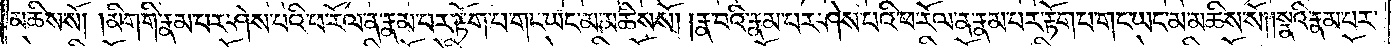མཆིས་སོ། །མིག་གི་རྣམ་པར་ཤེས་པའི་ཕ་རོལ་ན་རྣམ་པར་རྟོག་པ་གང་ཡང་མ་མཆིས་སོ། །རྣ་བའི་རྣམ་པར་ཤེས་པའི་ཕ་རོལ་ན་རྣམ་པར་རྟོག་པ་གང་ཡང་མ་མཆིས་སོ། །སྣའི་རྣམ་པར་
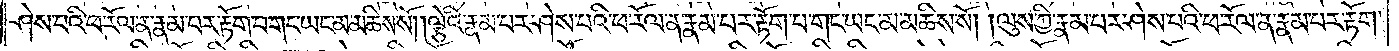ཤེས་པའི་ཕ་རོལ་ན་རྣམ་པར་རྟོག་པ་གང་ཡང་མ་མཆིས་སོ། །ལྕེའི་རྣམ་པར་ཤེས་པའི་ཕ་རོལ་ན་རྣམ་པར་རྟོག་པ་གང་ཡང་མ་མཆིས་སོ། །ལུས་ཀྱི་རྣམ་པར་ཤེས་པའི་ཕ་རོལ་ན་རྣམ་པར་རྟོག་
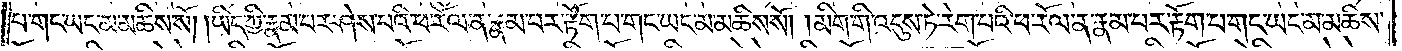པ་གང་ཡང་མ་མཆིས་སོ། །ཡིད་ཀྱི་རྣམ་པར་ཤེས་པའི་ཕ་རོལ་ན་རྣམ་པར་རྟོག་པ་གང་ཡང་མ་མཆིས་སོ། །མིག་གི་འདུས་ཏེ་རེག་པའི་ཕ་རོལ་ན་རྣམ་པར་རྟོག་པ་གང་ཡང་མ་མཆིས་
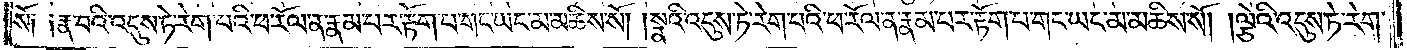སོ། །རྣ་བའི་འདུས་ཏེ་རེག་པའི་ཕ་རོལ་ན་རྣམ་པར་རྟོག་པ་གང་ཡང་མ་མཆིས་སོ། །སྣའི་འདུས་ཏེ་རེག་པའི་ཕ་རོལ་ན་རྣམ་པར་རྟོག་པ་གང་ཡང་མ་མཆིས་སོ། །ལྕེའི་འདུས་ཏེ་རེག་
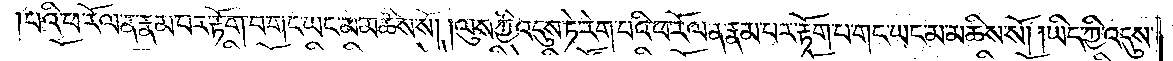པའི་ཕ་རོལ་ན་རྣམ་པར་རྟོག་པ་གང་ཡང་མ་མཆིས་སོ། །ལུས་ཀྱི་འདུས་ཏེ་རེག་པའི་ཕ་རོལ་ན་རྣམ་པར་རྟོག་པ་གང་ཡང་མ་མཆིས་སོ། །ཡིད་ཀྱི་འདུས་
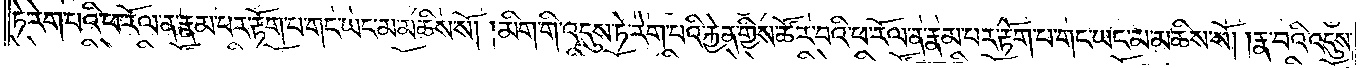ཏེ་རེག་པའི་ཕ་རོལ་ན་རྣམ་པར་རྟོག་པ་གང་ཡང་མ་མཆིས་སོ། །མིག་གི་འདུས་ཏེ་རེག་པའི་རྐྱེན་གྱིས་ཚོར་བའི་ཕ་རོལ་ན་རྣམ་པར་རྟོག་པ་གང་ཡང་མ་མཆིས་སོ། །རྣ་བའི་འདུས་
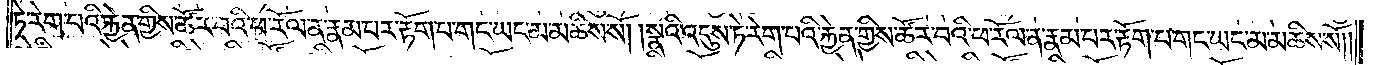ཏེ་རེག་པའི་རྐྱེན་གྱིས་ཚོར་བའི་ཕ་རོལ་ན་རྣམ་པར་རྟོག་པ་གང་ཡང་མ་མཆིས་སོ། །སྣའི་འདུས་ཏེ་རེག་པའི་རྐྱེན་གྱིས་ཚོར་བའི་ཕ་རོལ་ན་རྣམ་པར་རྟོག་པ་གང་ཡང་མ་མཆིས་སོ། །
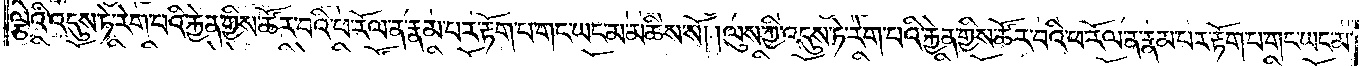ལྕེའི་འདུས་ཏེ་རེག་པའི་རྐྱེན་གྱིས་ཚོར་བའི་ཕ་རོལ་ན་རྣམ་པར་རྟོག་པ་གང་ཡང་མ་མཆིས་སོ། །ལུས་ཀྱི་འདུས་ཏེ་རེག་པའི་རྐྱེན་གྱིས་ཚོར་བའི་ཕ་རོལ་ན་རྣམ་པར་རྟོག་པ་གང་ཡང་མ་
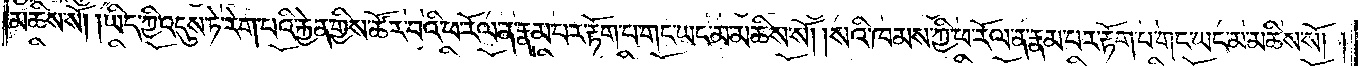མཆིས་སོ། །ཡིད་ཀྱི་འདུས་ཏེ་རེག་པའི་རྐྱེན་གྱིས་ཚོར་བའི་ཕ་རོལ་ན་རྣམ་པར་རྟོག་པ་གང་ཡང་མ་མཆིས་སོ། །སའི་ཁམས་ཀྱི་ཕ་རོལ་ན་རྣམ་པར་རྟོག་པ་གང་ཡང་མ་མཆིས་སོ། །
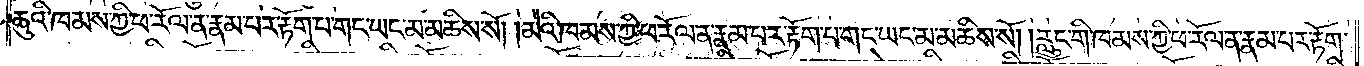ཆུའི་ཁམས་ཀྱི་ཕ་རོལ་ན་རྣམ་པར་རྟོག་པ་གང་ཡང་མ་མཆིས་སོ། །མེའི་ཁམས་ཀྱི་ཕ་རོལ་ན་རྣམ་པར་རྟོག་པ་གང་ཡང་མ་མཆིས་སོ། །རླུང་གི་ཁམས་ཀྱི་ཕ་རོལ་ན་རྣམ་པར་རྟོག་
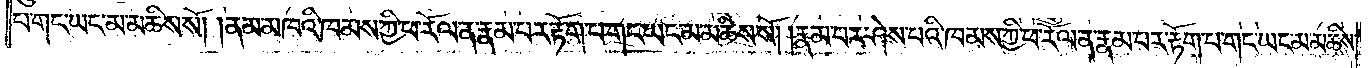པ་གང་ཡང་མ་མཆིས་སོ། །ནམ་མཁའི་ཁམས་ཀྱི་ཕ་རོལ་ན་རྣམ་པར་རྟོག་པ་གང་ཡང་མ་མཆིས་སོ། །རྣམ་པར་ཤེས་པའི་ཁམས་ཀྱི་ཕ་རོལ་ན་རྣམ་པར་རྟོག་པ་གང་ཡང་མ་མཆིས་
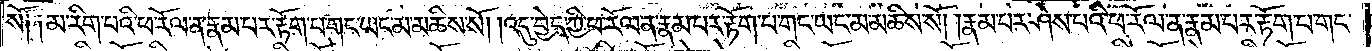སོ༑ ༑མ་རིག་པའི་ཕ་རོལ་ན་རྣམ་པར་རྟོག་པ་གང་ཡང་མ་མཆིས་སོ། །འདུ་བྱེད་ཀྱི་ཕ་རོལ་ན་རྣམ་པར་རྟོག་པ་གང་ཡང་མ་མཆིས་སོ། །རྣམ་པར་ཤེས་པའི་ཕ་རོལ་ན་རྣམ་པར་རྟོག་པ་གང་
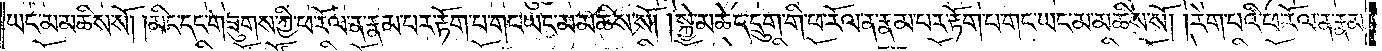ཡང་མ་མཆིས་སོ། །མིང་དང་གཟུགས་ཀྱི་ཕ་རོལ་ན་རྣམ་པར་རྟོག་པ་གང་ཡང་མ་མཆིས་སོ། །སྐྱེ་མཆེད་དྲུག་གི་ཕ་རོལ་ན་རྣམ་པར་རྟོག་པ་གང་ཡང་མ་མཆིས་སོ། །རེག་པའི་ཕ་རོལ་ན་རྣམ་
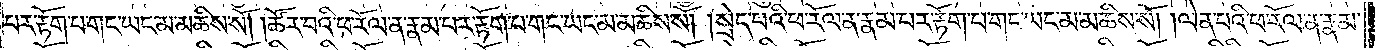པར་རྟོག་པ་གང་ཡང་མ་མཆིས་སོ། །ཚོར་བའི་ཕ་རོལ་ན་རྣམས་པར་རྟོག་པ་གང་ཡང་མ་མཆིས་སོ། །སྲེད་པའི་ཕ་རོལ་ན་རྣམ་པར་རྟོག་པ་གང་ཡང་མ་མཆིས་སོ། །ལེན་པའི་ཕ་རོལ་ན་རྣམ་
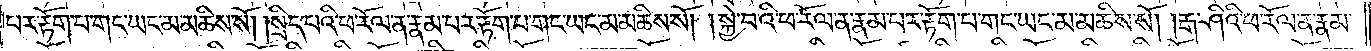པར་རྟོག་པ་གང་ཡང་མ་མཆིས་སོ། །སྲིད་པའི་ཕ་རོལ་ན་རྣམ་པར་རྟོག་པ་གང་ཡང་མ་མཆིས་སོ། །སྐྱེ་བའི་ཕ་རོལ་ན་རྣམ་པར་རྟོག་པ་གང་ཡང་མ་མཆིས་སོ། །རྒ་ཤིའི་ཕ་རོལ་ན་རྣམ་
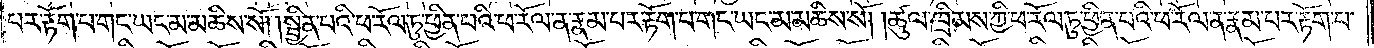པར་རྟོག་པ་གང་ཡང་མ་མཆིས་སོ། །སྦྱིན་པའི་ཕ་རོལ་ཏུ་ཕྱིན་པའི་ཕ་རོལ་ན་རྣམ་པར་རྟོག་པ་གང་ཡང་མ་མཆིས་སོ། །ཚུལ་ཁྲིམས་ཀྱི་ཕ་རོལ་ཏུ་ཕྱིན་པའི་ཕ་རོལ་ན་རྣམ་པར་རྟོག་པ་
